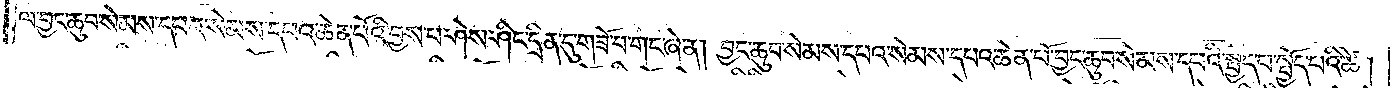ལ་བྱང་ཆུབ་སེམས་དཔའ་སེམས་དཔའ་ཆེན་པོའི་བྱས་པ་ཤེས་ཤིང་དྲིན་དུ་གཟོ་བ་གང་ཞེ་ན། བྱང་ཆུབ་སེམས་དཔའ་སེམས་དཔའ་ཆེན་པོ་བྱང་ཆུབ་སེམས་དཔའི་སྤྱད་པ་སྤྱོད་པའི་ཚེ།
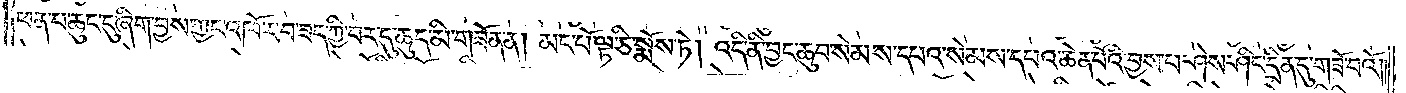ཕན་པ་ཆུང་ངུ་ཞིག་བྱས་ཀྱང་འཁོར་བ་ཟད་ཀྱི་བར་དུ་ཆུད་མི་གཟོན་ན། མང་པོ་ལྟ་ཅི་སྨོས་ཏེ། འདི་ནི་བྱང་ཆུབ་སེམས་དཔའ་སེམས་དཔའ་ཆེན་པོའི་བྱས་པ་ཤེས་ཤིང་དྲིན་དུ་གཟོ་བའོ། །
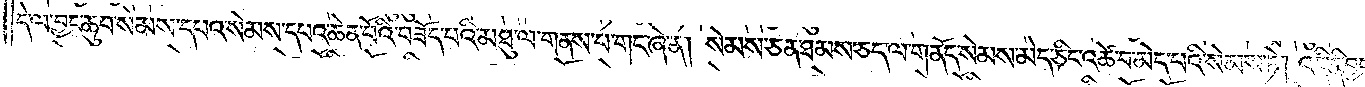དེ་ལ་བྱང་ཆུབ་སེམས་དཔའ་སེམས་དཔའ་ཆེན་པོའི་བཟོད་པའི་མཐུ་ལ་གནས་པ་གང་ཞེ་ན། སེམས་ཅན་ཐམས་ཅད་ལ་གནོད་སེམས་མེད་ཅིང་འཚེ་བ་མེད་པའི་སེམས་ཏེ། འདི་ནི་བྱང་
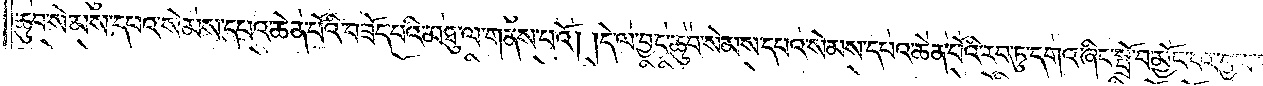ཆུབ་སེམས་དཔའ་སེམས་དཔའ་ཆེན་པོའི་བཟོད་པའི་མཐུ་ལ་གནས་པའོ། །དེ་ལ་བྱང་ཆུབ་སེམས་དཔའ་སེམས་དཔའ་ཆེན་པོའི་རབ་ཏུ་དགའ་ཞིང་སྤྲོ་བ་མྱོང་བར་བྱ་བ་གང་ཞེ་ན། འདི་
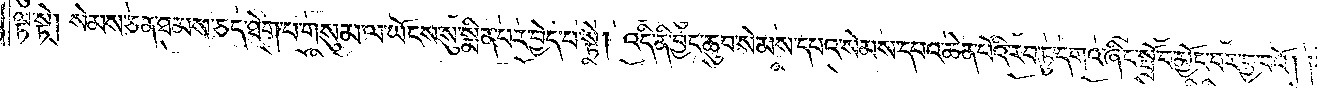ལྟ་སྟེ། སེམས་ཅན་ཐམས་ཅད་ཐེག་པ་གསུམ་ལ་ཡོངས་སུ་སྨིན་པར་བྱེད་པ་སྟེ། འདི་ནི་བྱང་ཆུབ་སེམས་དཔའ་སེམས་དཔའ་ཆེན་པོའི་རབ་ཏུ་དགའ་ཞིང་སྤྲོ་བ་མྱོང་བར་བྱ་བའོ། །དེ་ལ་བྱང་
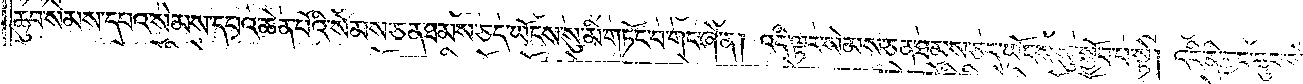ཆུབ་སེམས་དཔའ་སེམས་དཔའ་ཆེན་པོའི་སེམས་ཅན་ཐམས་ཅད་ཡོངས་སུ་མི་བཏང་བ་གང་ཞེ་ན། འདི་ལྟར་སེམས་ཅན་ཐམས་ཅད་ཡོངས་སུ་སྐྱོབ་པ་སྟེ། འདི་ནི་བྱང་ཆུབ་སེམས་དཔའ་
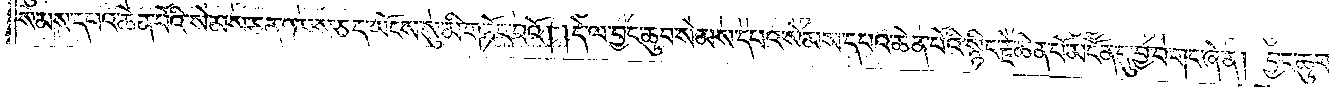སེམས་དཔའ་ཆེན་པོའི་སེམས་ཅན་ཐམས་ཅད་ཡོངས་སུ་མི་བཏོང་བའོ། །དེ་ལ་བྱང་ཆུབ་སེམས་དཔའ་སེམས་དཔའ་ཆེན་པོའི་སྙིང་རྗེ་ཆེན་པོ་མངོན་དུ་བྱ་བ་གང་ཞེ་ན། བྱང་ཆུབ་སེམས་
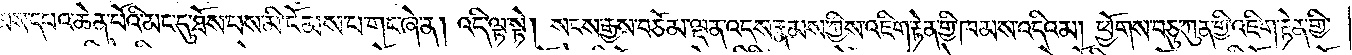སེམས་དཔའ་ཆེན་པོའི་མང་དུ་ཐོས་པས་མི་ངོམས་པ་གང་ཞེ་ན། འདི་ལྟ་སྟེ། སངས་རྒྱས་བཅོམ་ལྡན་འདས་རྣམས་ཀྱིས་འཇིག་རྟེན་གྱི་ཁམས་འདིའམ། ཕྱོགས་བཅུ་ཀུན་གྱི་འཇིག་རྟེན་གྱི་
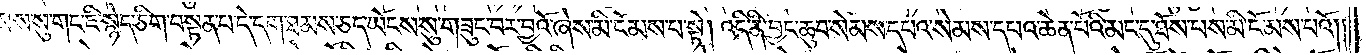ཁམས་སུ་གང་ཇི་སྙེད་ཅིག་བསྟན་པ་དེ་དག་ཐམས་ཅད་ཡོངས་སུ་གཟུང་བར་བྱའོ་ཞེས་མི་ངོམས་པ་སྟེ། འདི་ནི་བྱང་ཆུབ་སེམས་དཔའ་སེམས་དཔའ་ཆེན་པོའི་མང་དུ་ཐོས་པས་མི་ངོམས་པའོ། །
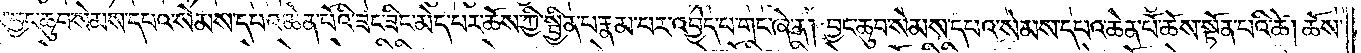དེ་ལ་བྱང་ཆུབ་སེམས་དཔའ་སེམས་དཔའ་ཆེན་པོའི་ཟང་ཟིང་མེད་པར་ཆོས་ཀྱི་སྦྱིན་པ་རྣམ་པར་འབྱེད་པ་གང་ཞེ་ན། བྱང་ཆུབ་སེམས་དཔའ་སེམས་དཔའ་ཆེན་པོ་ཆོས་སྟོན་པའི་ཚེ། ཆོས་
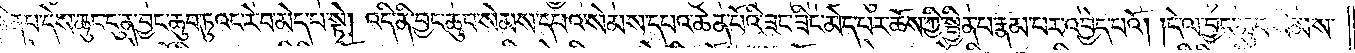སྦྱིན་པ་དེས་ཆུང་ངུ་ན་བྱང་ཆུབ་ཏུའང་རེ་བ་མེད་པ་སྟེ། འདི་ནི་བྱང་ཆུབ་སེམས་དཔའ་སེམས་དཔའ་ཆེན་པོའི་ཟང་ཟིང་མེད་པར་ཆོས་ཀྱི་སྦྱིན་པ་རྣམ་པར་འབྱེད་པའོ། །དེ་ལ་བྱང་ཆུབ་སེམས་
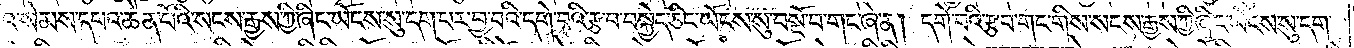དཔའ་སེམས་དཔའ་ཆེན་པོའི་སངས་རྒྱས་ཀྱི་ཞིང་ཡོངས་སུ་དག་པར་བྱ་བའི་དགེ་བའི་རྩ་བ་བསྐྱེད་ཅིང་ཡོངས་སུ་བསྔོ་བ་གང་ཞེ་ན། དགེ་བའི་རྩ་བ་གང་གིས་སངས་རྒྱས་ཀྱི་ཞིང་ཡོངས་སུ་དག་
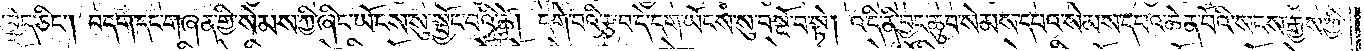པར་བྱེད་ཅིང༌། བདག་དང་གཞན་གྱི་སེམས་ཀྱི་ཞིང་ཡོངས་སུ་སྤྱོད་བའི་ཚེ། དགེ་བའི་རྩ་བ་དེ་དག་ཡོངས་སུ་བསྔོ་བ་སྟེ། འདི་ནི་བྱང་ཆུབ་སེམས་དཔའ་སེམས་དཔའ་ཆེན་པོའི་སངས་རྒྱས་ཀྱི་
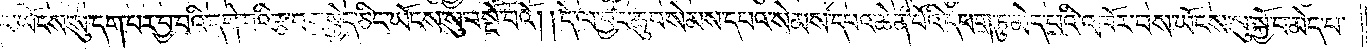ཞིང་ཡོངས་སུ་དག་པར་བྱ་བའི་དགེ་བའི་རྩ་བ་བསྐྱེད་ཅིང་ཡོངས་སུ་བསྔོ་བའོ། །དེ་ལ་བྱང་ཆུབ་སེམས་དཔའ་སེམས་དཔའ་ཆེན་པོའི་དཔག་ཏུ་མེད་པའི་འཁོར་བས་ཡོངས་སུ་སྐྱོ་བ་མེད་པ་
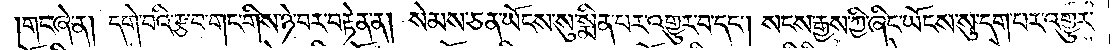གང་ཞེ་ན། དགེ་བའི་རྩ་བ་གང་གིས་ཉེ་བར་བརྟེན་ན། སེམས་ཅན་ཡོངས་སུ་སྨིན་པར་འགྱུར་བ་དང༌། སངས་རྒྱས་ཀྱི་ཞིང་ཡོངས་སུ་དག་པར་འགྱུར་
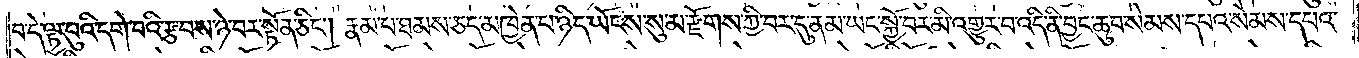བ་དེ་ལྟ་བུའི་དགེ་བའི་རྩ་བས་ཉེ་བར་སྟོན་ཅིང༌། རྣམ་པ་ཐམས་ཅད་མཁྱེན་པ་ཉིད་ཡོངས་སུ་མ་རྫོགས་ཀྱི་བར་དུ་ནམ་ཡང་སྐྱོ་བར་མི་འགྱུར་བ་འདི་ནི་བྱང་ཆུབ་སེམས་དཔའ་སེམས་དཔའ་
